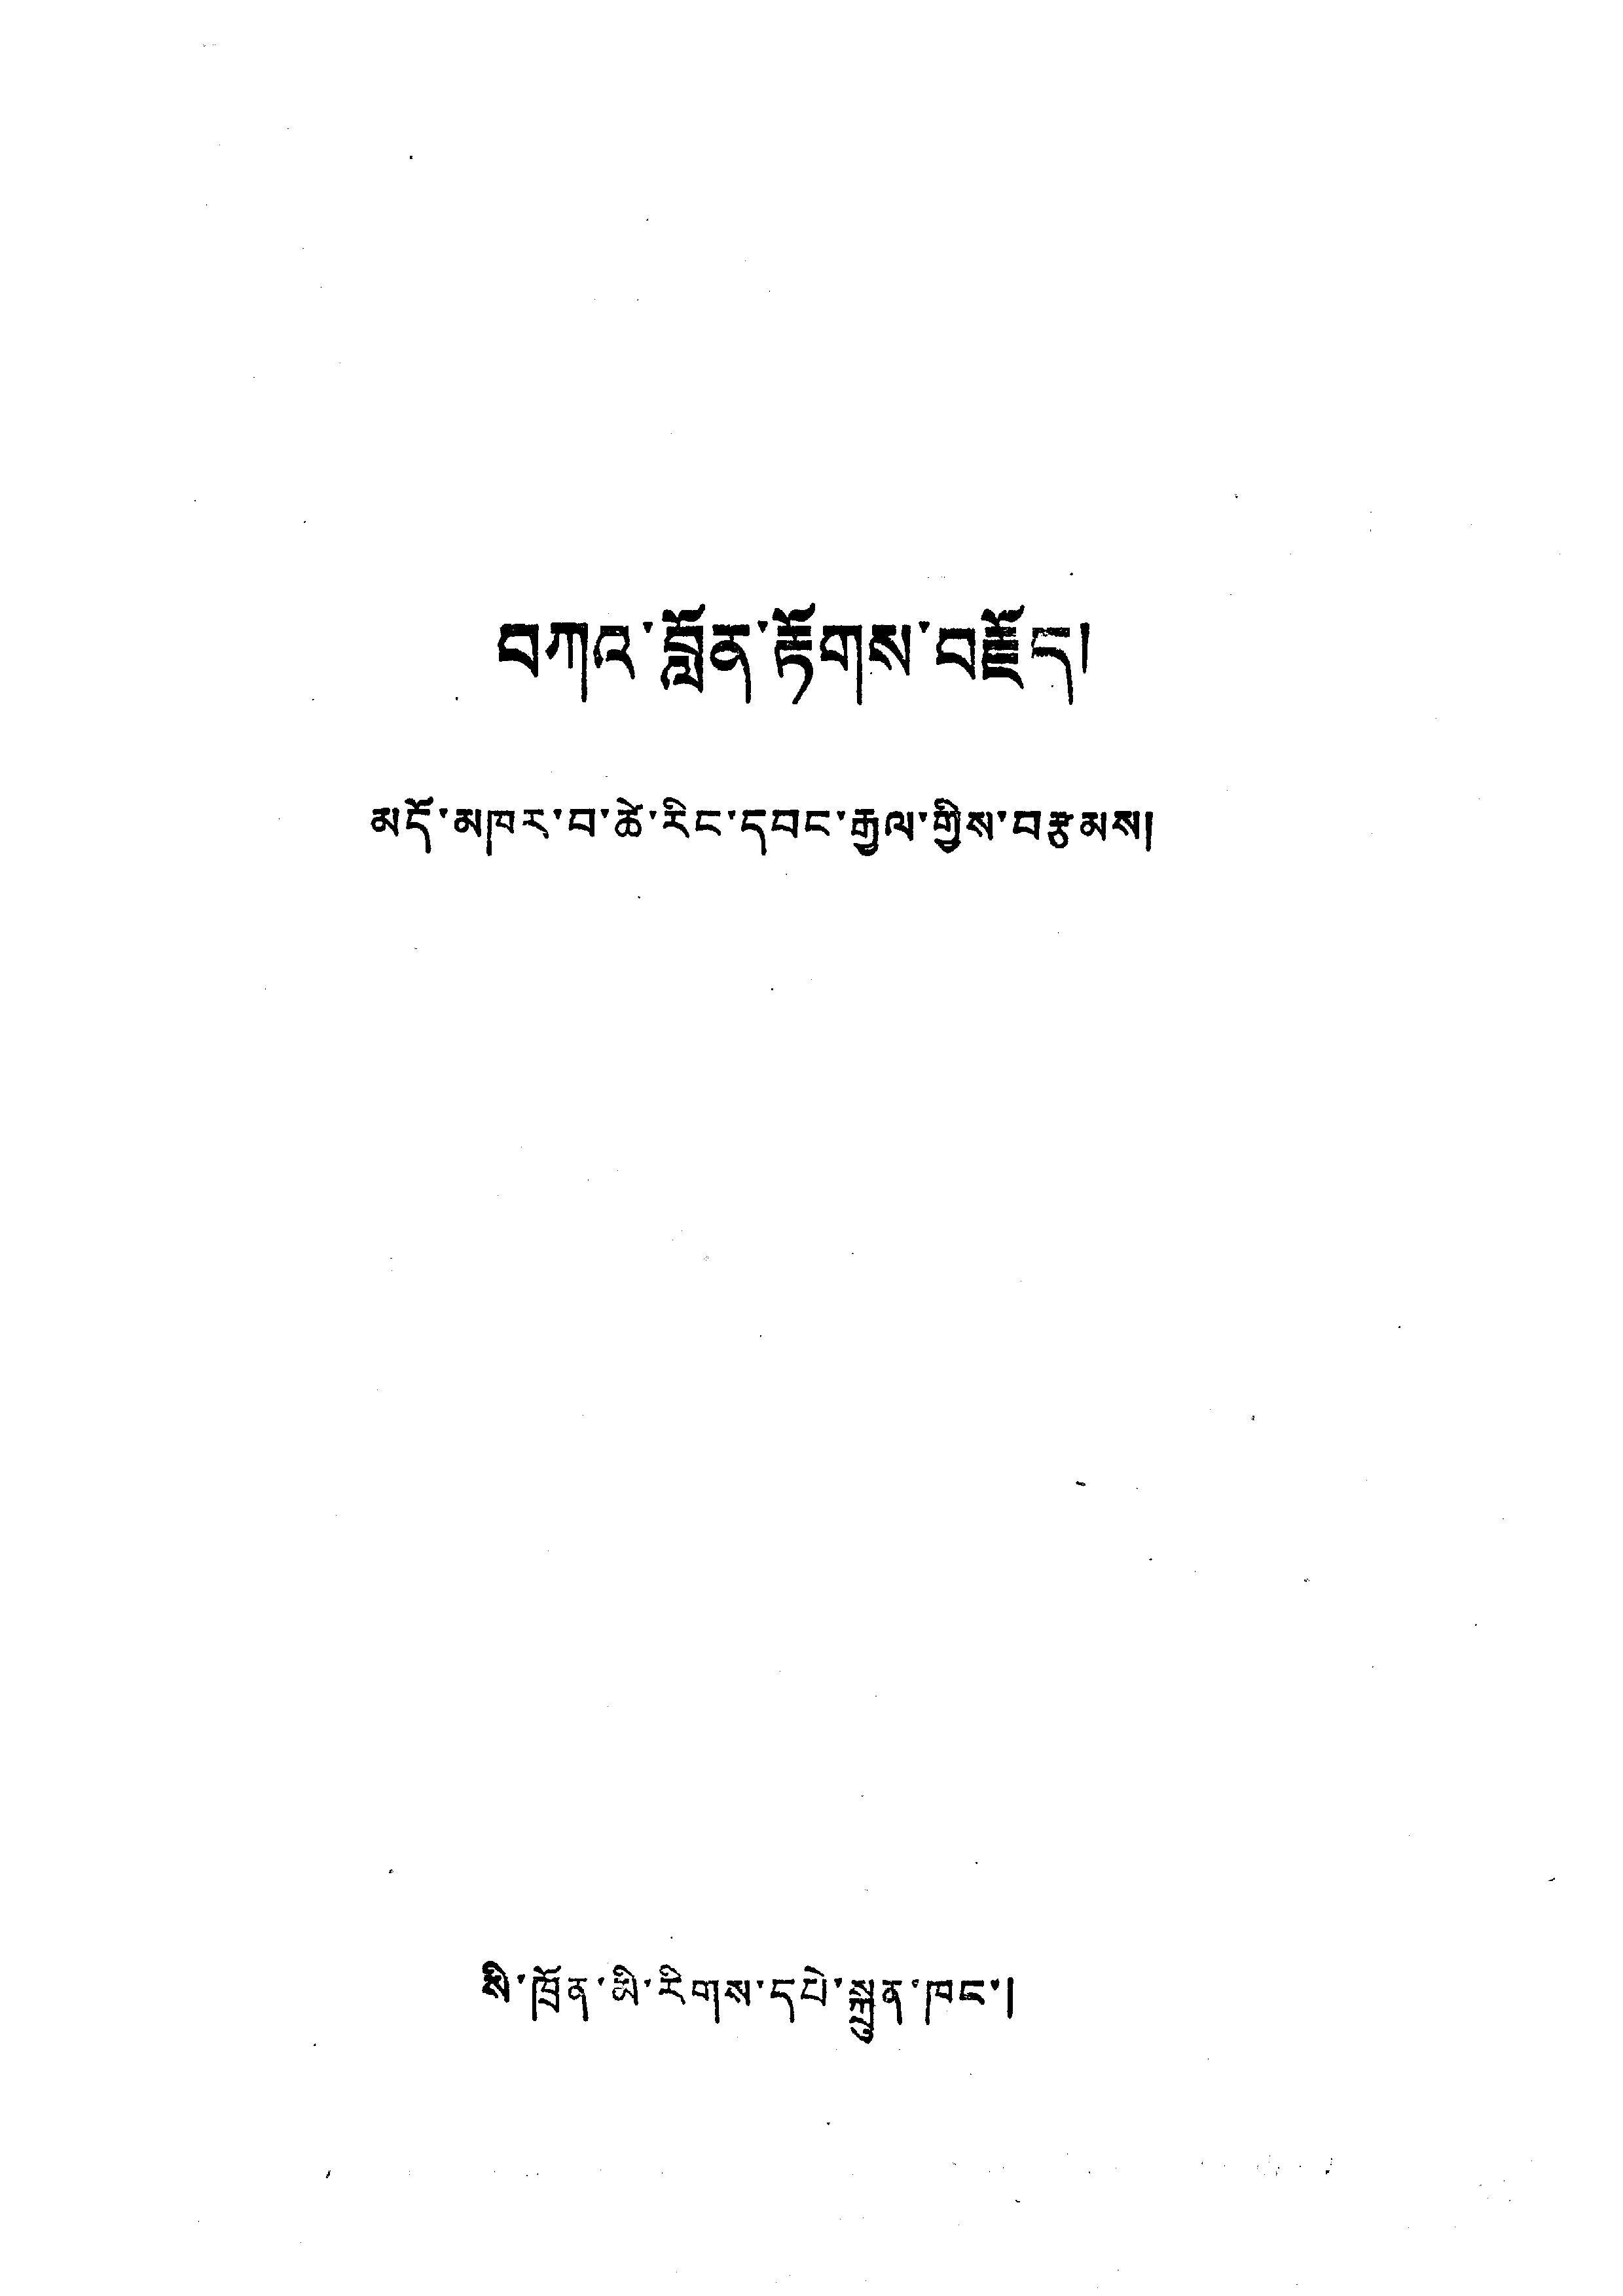བཀའ་བློན་རྟོགས་བརྗོད།
མདོ་མཁར་བ་ཚེ་རིང་དབང་རྒྱལ་གྱིས་བརྩམས།
སི་ཁྲོན་མི་རིགས་དཔེ་སྐྲུན་ཁང་།
